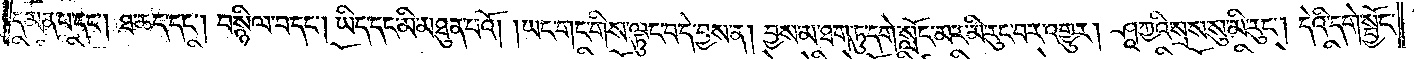དམན་པ་དང༌། ཐ་ཆད་དང༌། བསྙིལ་བ་དང༌། ཡིད་དང་མི་མཐུན་པའོ། །ཡང་གང་གིས་ལྟུང་བ་དེ་བྱས་ན། བྱས་མ་ཐག་ཏུ་དགེ་སློང་མར་མི་རུང་བར་འགྱུར། ཤཱཀྱའི་སྲས་སུ་མི་རུང༌། དེའི་དགེ་སྦྱོང་
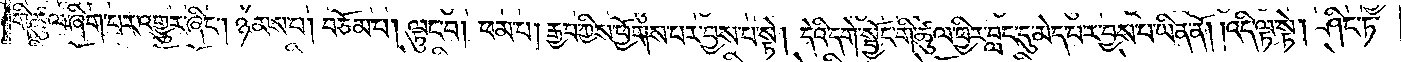གི་ཚུལ་ཞིག་པར་འགྱུར་ཞིང༌། ཉམས་པ། བཅོམ་པ། ལྟུང་བ། ཕམ་པ། རྒྱབ་ཀྱིས་ཕྱོགས་པར་བྱས་པ་སྟེ། དེའི་དགེ་སྦྱོང་གི་ཚུལ་ཕྱིར་བླང་དུ་མེད་པར་བྱས་པ་ཡིན་ནོ། །འདི་ལྟ་སྟེ། ཤིང་ཏ་
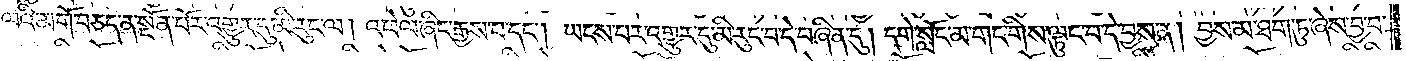ལའི་མགོ་བཅད་ན་སྔོན་པོར་འགྱུར་དུ་མི་རུང་ལ། འཕེལ་ཞིང་རྒྱས་པ་དང༌། ཡངས་པར་འགྱུར་དུ་མི་རུང་བ་དེ་བཞིན་དུ། དགེ་སློང་མ་གང་གིས་ལྟུང་བ་དེ་བྱས་ན། བྱས་མ་ཐག་ཏུ་ཞེས་བྱ་བ་
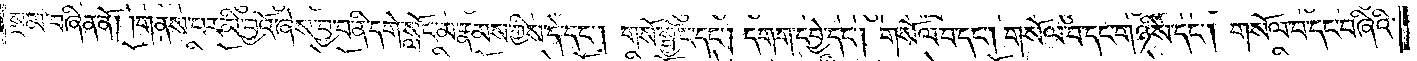སྔ་མ་བཞིན་ནོ། །གནས་པར་མི་བྱའོ་ཞེས་བྱ་བ་ནི་དགེ་སློང་མ་རྣམས་ཀྱིས་དེ་དང༌། གསོ་སྦྱོང་དང༌། དགག་དབྱེ་དང༌། གསོལ་བ་དང༌། གསོལ་བ་དང་གཉིས་དང༌། གསོལ་བ་དང་བཞིའི་
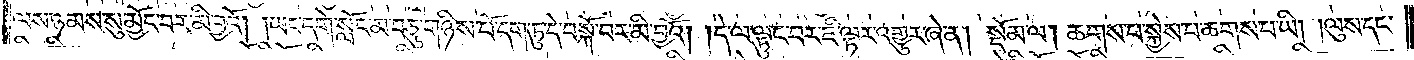ལས་ཉམས་སུ་མྱོང་བར་མི་བྱའོ། །ཡང་དགེ་སློང་མ་བཅུ་གཉིས་པོ་དག་ཏུ་དེ་བསྐོ་བར་མི་བྱའོ། །དེ་ལ་ལྟུང་བར་མི་ལྟར་འགྱུར་ཞེ་ན། སྡོམ་ལ། ཆགས་པ་སྐྱེས་པ་ཆགས་པ་ཡི། །ལུས་དང་
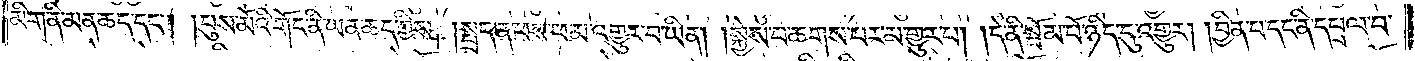མིག་ནི་མན་ཆད་དང༌། །པུས་མོའི་གོང་ནི་ཡན་ཆད་ཀྱིས། །སྤྲད་ན་ཕས་ཕམ་འགྱུར་པ་ཡིན། །སྐྱེས་པ་ཆགས་པར་མ་གྱུར་པ། །དེ་ནི་སྤོམ་པོ་ཉིད་དུ་འགྱུར། །བྱིན་པ་དང་ནི་དཔྲལ་བ་
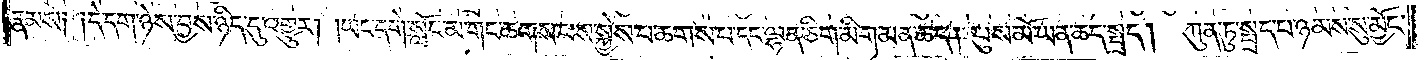རྣམས༑ ༑དེ་དག་ཉེས་བྱས་ཉིད་དུ་འགྱུར། །ཡང་དགེ་སློང་མ་གང་ཆགས་པས་སྐྱེས་པ་ཆགས་པ་དང་ལྷན་ཅིག་མིག་མན་ཆད། པུས་མོ་ཡན་ཆད་སྤྲད། ཀུན་ཏུ་སྤྲད་པ་ཉམས་སུ་མྱོང་
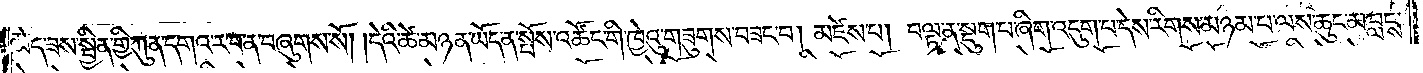མེད་ཟས་སྦྱིན་གྱི་ཀུན་དགའ་ར་བ་ན་བཞུགས་སོ། །དེའི་ཚེ་མཉན་ཡོད་ན་སྤོས་འཚོང་གི་ཁྱེའུ་གཟུགས་བཟང་བ། མཛེས་པ། བལྟ་ན་སྡུག་པ་ཞིག་འདུག་པ་དེས་རིགས་མཉམ་པ་ལས་ཆུང་མ་བླངས་
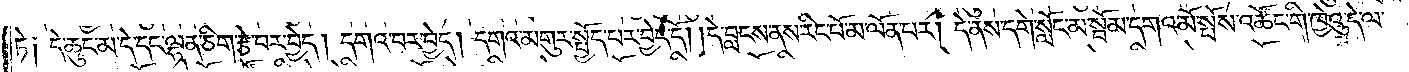ཏེ༑ དེ་ཆུང་མ་དེ་དང་ལྷན་ཅིག་རྩེ་བར་བྱེད། །དགའ་བར་བྱེད། དགའ་མགུར་སྤྱོད་པར་བྱེད་དོ། །དེ་བླངས་ནས་རིང་པོ་མ་ལོན་པར། དེ་ནས་དགེ་སློང་མ་སྦོམ་དགའ་མོ་སྤོས་འཚོང་གི་ཁྱེའུ་དེ་ལ་
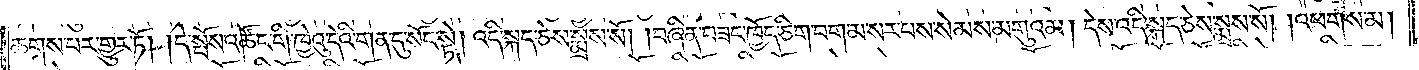ཆགས་པར་གྱུར་ཏོ། །དེ་སྤོས་འཚོང་གི་ཁྱེའུ་དེའི་གན་དུ་སྟོང་སྟེ། འདི་སྐད་ཅེས་སྨྲས་སོ། །བཞིན་བཟང་ཁྱོད་ཅིག་བག་མ་སར་པས་སེམས་མགུའམ། དེས་འདི་སྐད་ཅེས་སྨྲས་སོ། །འཕགས་མ།
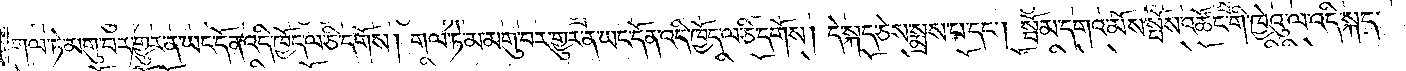གལ་ཏེ་མགུ་བར་གྱུར་ན་ཡང་དོན་འདི་ཁྱོད་ལ་ཅི་དགོས། གལ་ཏེ་མ་མགུ་བར་གྱུར་ན་ཡང་དོན་འདི་ཁྱོད་ལ་ཅི་དགོས། དེ་སྐད་ཅེས་སྨྲས་པ་དང༌། སྤོམ་དགའ་མོས་སྤོས་འཚོང་གི་ཁྱེའུ་ལ་འདི་སྐད་
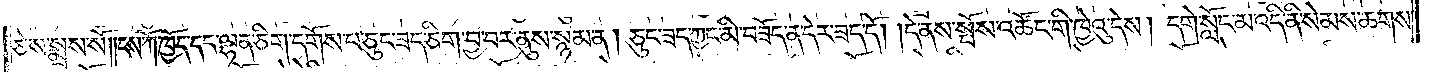ཅེས་སྨྲས་སོ། །ངས་ཀོ་ཁྱོད་དང་ལྷན་ཅིག་དགོས་པ་ཅུང་ཟད་ཅིག་བྱ་བར་ནུས་སྙམ་ན། ཅུང་ཟད་ཀྱང་མི་བཟོད་ན་དེར་ཟད་དོ། །དེ་ནས་སྤོས་འཚོང་གི་ཁྱེའུ་དེས། དགེ་སློང་མ་འདི་ནི་སེམས་ཆགས་
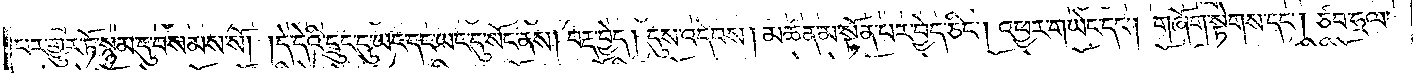པར་གྱུར་ཏོ་སྙམ་དུ་བསམས་སོ། །དེ་དེའི་དྲུང་དུ་ཡང་དང་ཡང་དུ་སོང་ནས། བརྡ་བྱེད། དུས་འདེབས། མཚན་མ་སྟོན་པར་བྱེད་ཅིང༌། འཕྱར་གཡེང་དང༌། གཞོག་སྟེགས་དང༌། ཙབ་ཧྲལ་
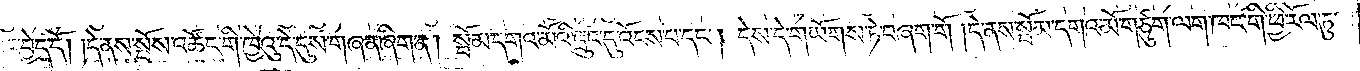ཀྱང་བྱེད་དོ། །དེ་ནས་སྤོས་འཚོང་གི་ཁྱེའུ་དེ་དུས་གཞན་ཞིག་ན། སྦོམ་དགའ་མོའི་དྲུང་དུ་འོངས་པ་དང༌། དེས་དེ་གཡོགས་ཏེ་བཞག་གོ །དེ་ནས་སྦོམ་དགའ་མོ་གཙུག་ལག་ཁང་གི་ཕྱི་རོལ་ཏུ་
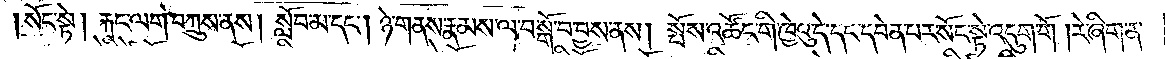སོང་སྟེ། རྐང་ལག་བཀྲུས་ནས། སློབ་མ་དང༌། ཉེ་གནས་རྣམས་ལ་བསྒོ་བ་བྱས་ནས། སྤོས་འཚོང་གི་ཁྱེའུ་དེ་དང་དབེན་པར་སོང་སྟེ་འདུག་གོ །རེ་ཞིག་ན་
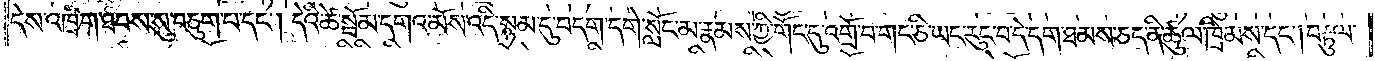དེས་འཁྲིག་ཐབས་སུ་བཅུག་པ་དང༌། དེའི་ཚེ་སྤོམ་དགའ་མོས་འདི་སྙམ་དུ་བདག་དགེ་སློང་མ་རྣམས་ཀྱི་གོང་དུ་འགྲོ་བ་གང་ཅི་ཡང་རུང་བ་དེ་དག་ཐམས་ཅད་ནི་ཚུལ་ཁྲིམས་དང༌། བརྟུལ་
